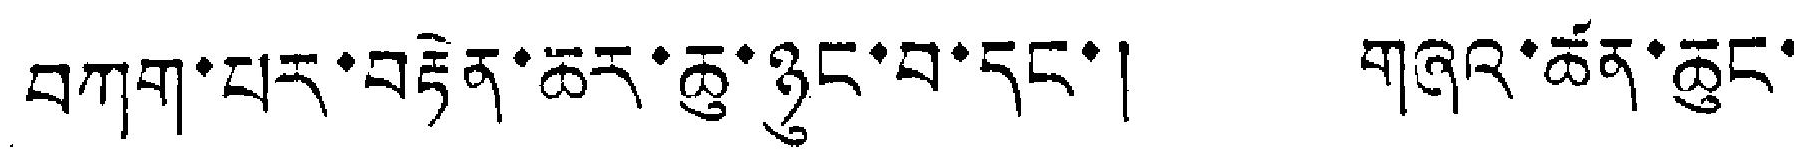བཀག་པར་བརྟེན་ཆར་ཆུ་ཉུང་བ་དང་། གཞའ་ཚན་ཆུང་
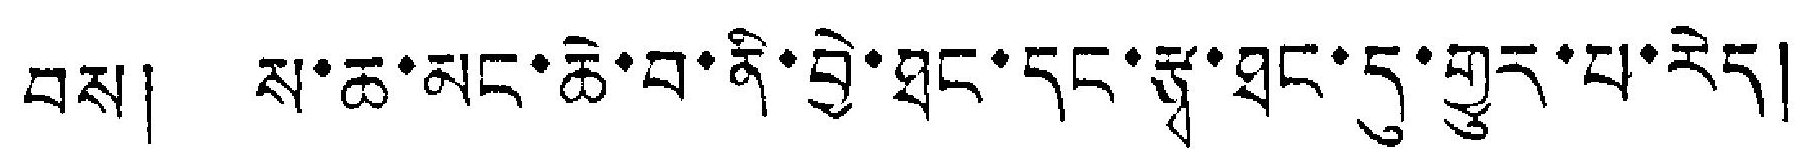བས། ས་ཆ་མང་ཆེ་བ་ནི་བྱེ་ཐང་དང་རྩྭ་ཐང་དུ་གྱུར་པ་རེད།
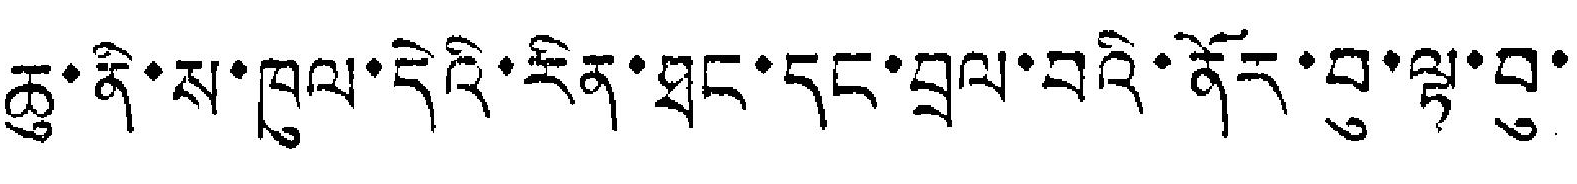ཆུ་ནི་ས་ཁུལ་དེའི་རིན་ཐང་དང་བྲལ་བའི་ནོར་བུ་ལྟ་བུ་
